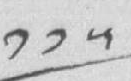༡༡༥
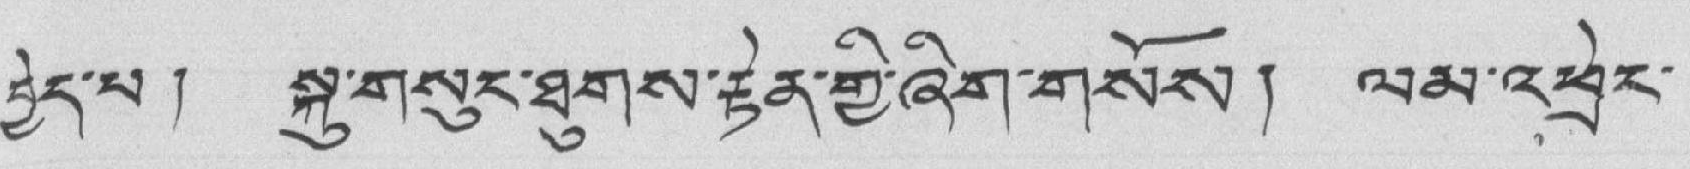བྱེད་པ། སྐུ་གསུང་ཐུགས་རྟེན་གྱི་ཞིག་གསོས། ལམ་འཕྲེང་
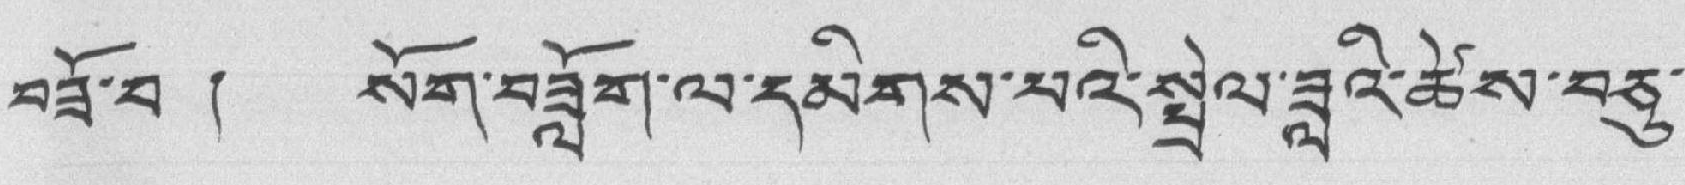བཟོ་བ ། སོག་བཟློག་ལ་དམིགས་པའི་སྤྲེལ་ཟླའི་ཚེས་བཅུ་
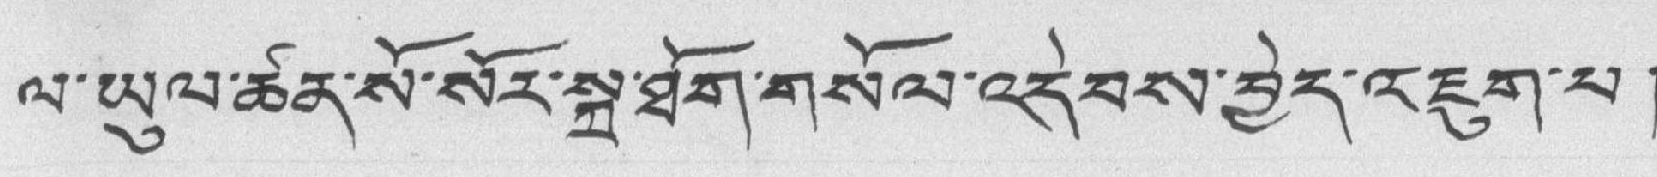ལ་ཡུལ་ཚན་སོ་སོར་སྐྲ་ཐོག་གསོལ་འདེབས་བྱེད་འཇུག་པ།
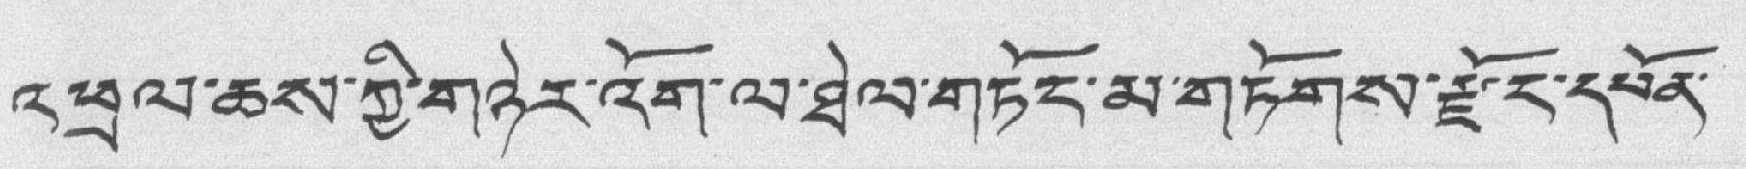འཕྲལ་ཆས་ཀྱི་གཉེར་འོག་ལ་ཐེལ་གཏོང་མ་གཏོགས་རྗོང་དཔོན་
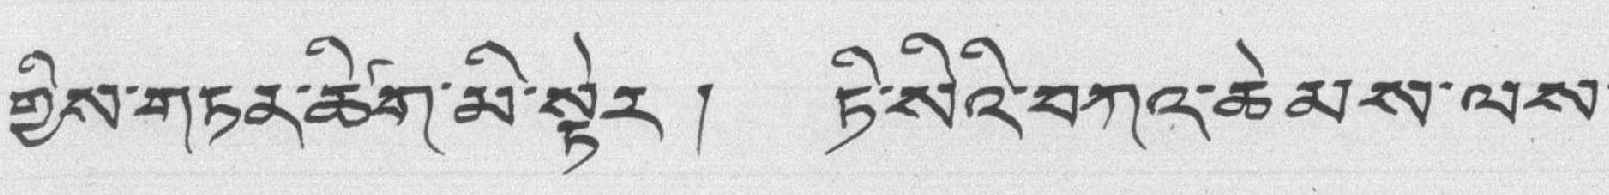གྱིས་གཏན་ཚིག་མི་སྟེར། ཏི་སིའི་བཀའ་ཆེམས་ལས་
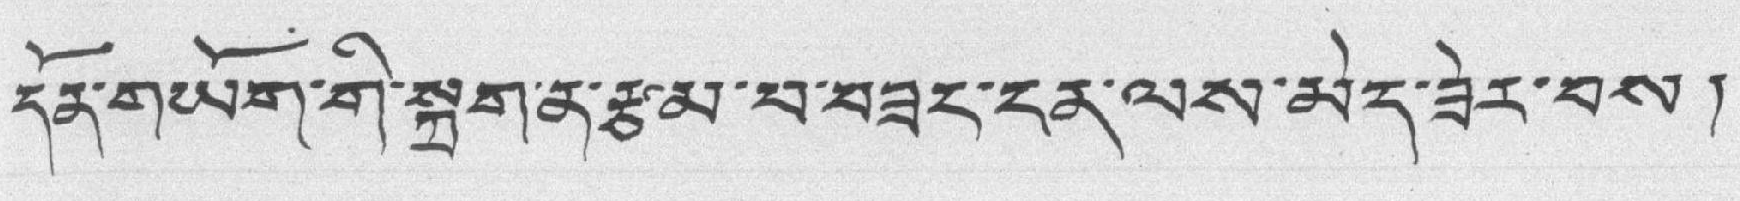དོན་གཡོག་གི་སྐྲག་ན་རྩམ་པ་བཟང་ངན་ལས་མེད་ཟེར་བས།
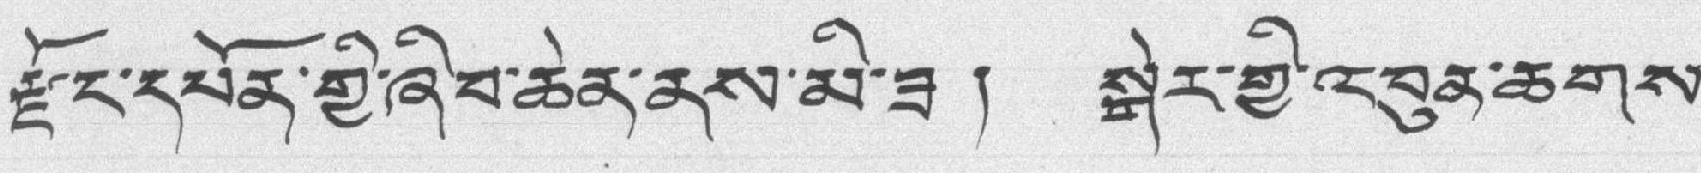རྫོང་དཔོན་གྱི་ཞི་བ་ཆེན་ནས་མི་ཟ། སྒེར་གྱི་འབུན་ཆགས་
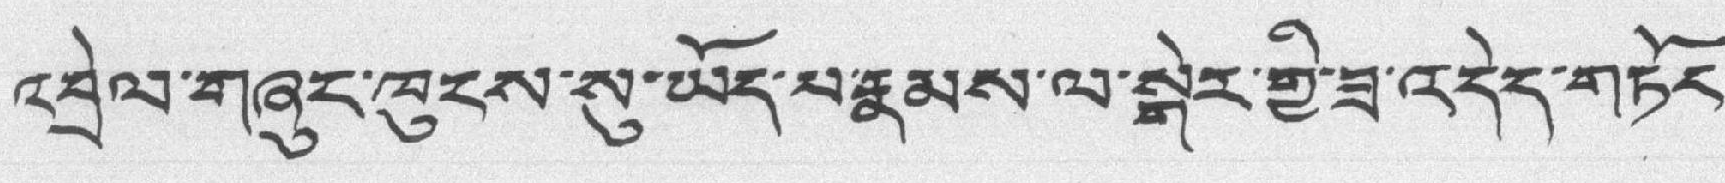འབྲེལ་གཞུང་ཁུངས་སུ་ཡོད་པ་རྣམས་ལ་སྒེར་གྱི་ཟ་འདེད་གཏོང་
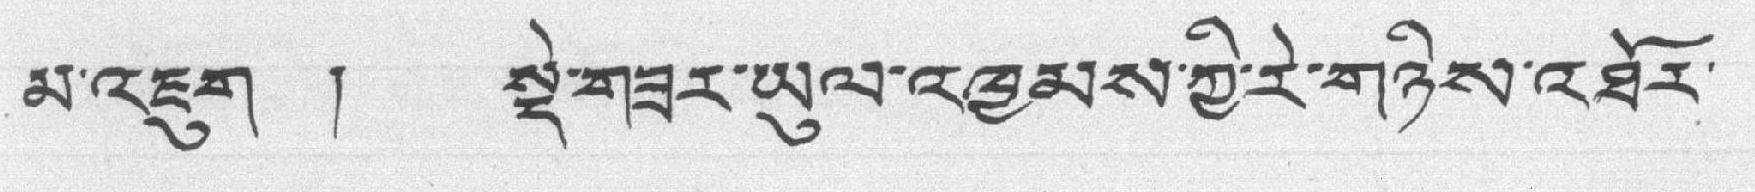མ་འཇུག ། སྡེ་གཟར་ཡུལ་འཁྱམས་ཀྱི་རེ་གཉིས་འཐོར་
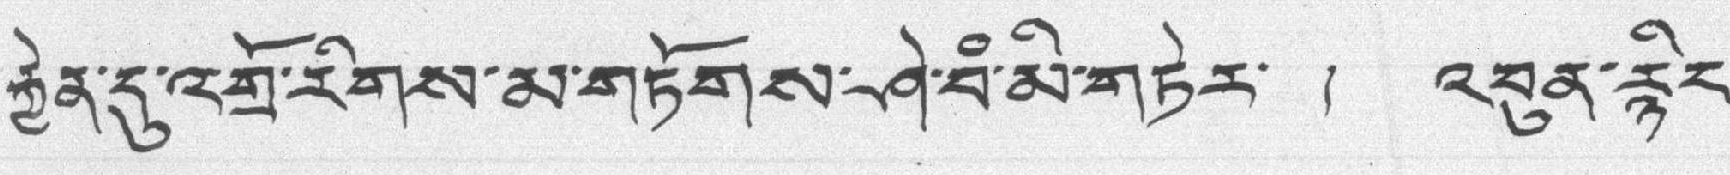རྐྱེན་དུ་འགྲོ་རིགས་མ་གཏོགས་ཤེ་བཾ་མི་གཏེར་ ། འབུན་རྙིང་
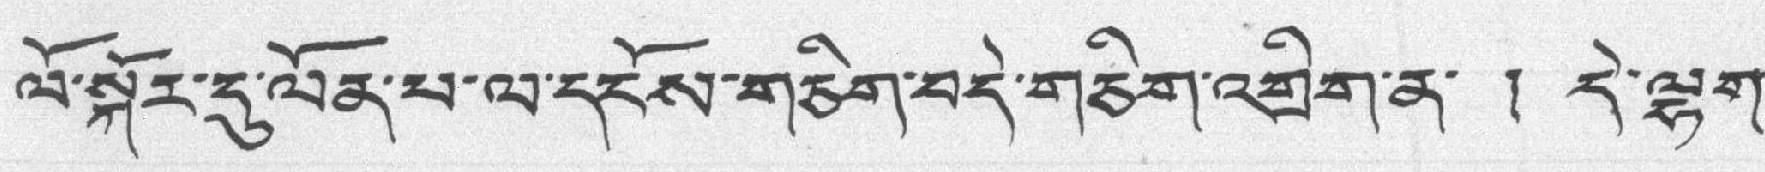ལོ་སྐོར་དུ་ལོན་པ་ལ་དངོས་གཅིག་བདེ་གཅིག་འགྲིག་ན་ ། དེ་ལྷག་
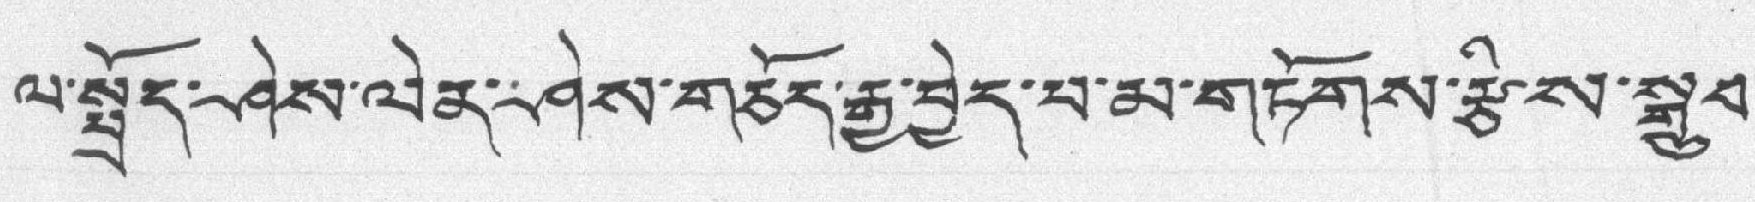ལ་སྤྲོད་ཤེས་ལེན་ཤེས་གཅོད་རྒྱ་བྱེད་པ་མ་གཏོགས་རྩིས་སྒྲུབ་
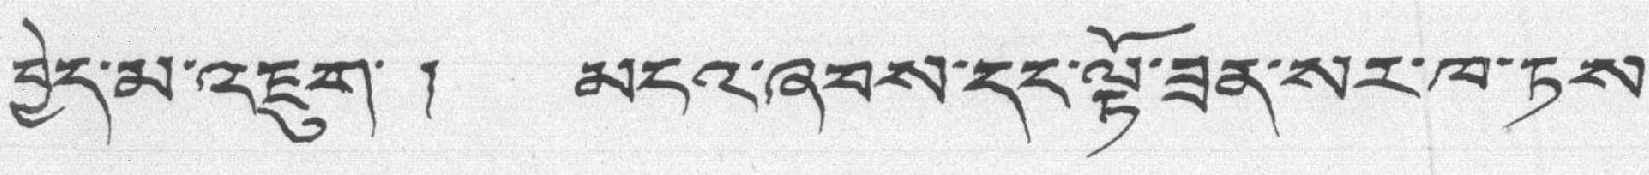བྱེད་མ་འཇུག་། མངའ་ཞབས་དང་ལྟོ་ཟན་སར་ཁ་ཏས་
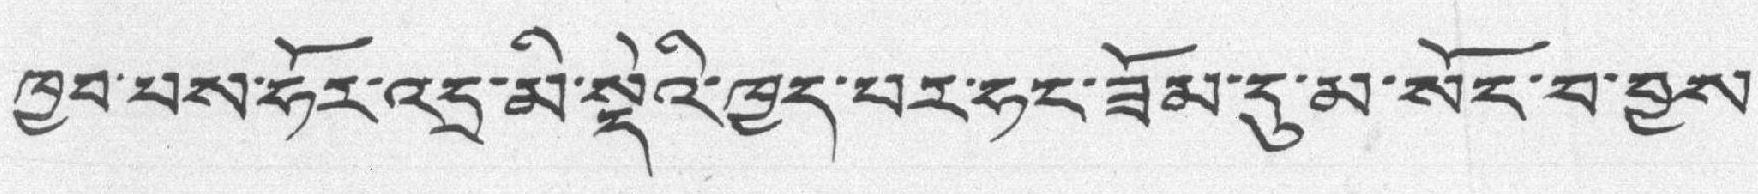ཁྱབ་པས་ཧོར་འདྲ་མི་སྡེའི་ཁྱད་པར་ཧང་ཟོམ་དུ་མ་སོང་བ་བྱས་
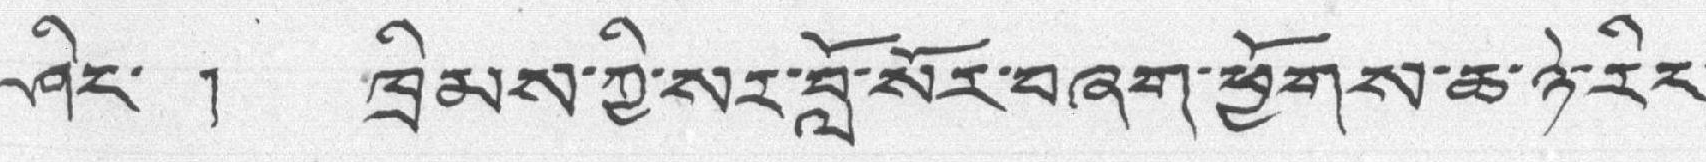ཤིང་ ། ཁྲིམས་ཀྱི་སར་བློ་སོར་བཞག་ཕྱོགས་ཆ་ཉེ་རིར་
